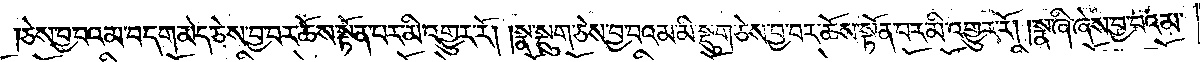ཅེས་བྱ་བའམ་བདག་མེད་ཅེས་བྱ་བར་ཆོས་སྟོན་པར་མི་འགྱུར་རོ། །སྣ་སྡུག་ཅེས་བྱ་བའམ་མི་སྡུག་ཅེས་བྱ་བར་ཆོས་སྟོན་པར་མི་འགྱུར་རོ། །སྣ་ཞི་ཞེས་བྱ་བའམ་
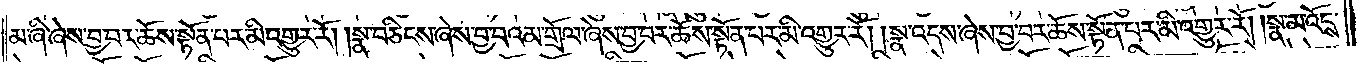མ་ཞི་ཞེས་བྱ་བར་ཆོས་སྟོན་པར་མི་འགྱུར་རོ། །སྣ་བཅིངས་ཞེས་བྱ་བའམ་གྲོལ་ཞེས་བྱ་བར་ཆོས་སྟོན་པར་མི་འགྱུར་རོ། །སྣ་འདས་ཞེས་བྱ་བར་ཆོས་སྟོན་པར་མི་འགྱུར་རོ། །སྣ་མ་འོངས་
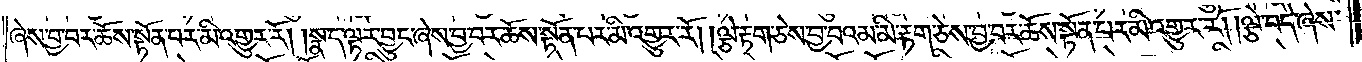ཞེས་བྱ་བར་ཆོས་སྟོན་པར་མི་འགྱུར་རོ། །སྣ་ད་ལྟར་བྱུང་ཞེས་བྱ་བར་ཆོས་སྟོན་པར་མི་འགྱུར་རོ། །ལྕེ་རྟག་ཅེས་བྱ་བའམ་མི་རྟག་ཅེས་བྱ་བར་ཆོས་སྟོན་པར་མི་འགྱུར་རོ། །ལྕེ་བདེ་ཞེས་
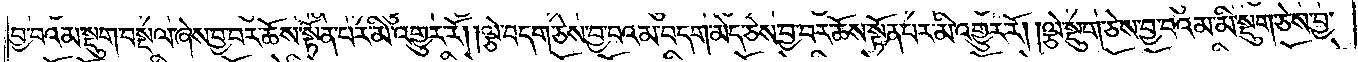བྱ་བའམ་སྡུག་བསྔལ་ཞེས་བྱ་བར་ཆོས་སྟོན་པར་མི་འགྱུར་རོ། །ལྕེ་བདག་ཅེས་བྱ་བའམ་བདག་མེད་ཅེས་བྱ་བར་ཆོས་སྟོན་པར་མི་འགྱུར་རོ། །ལྕེ་སྡུག་ཅེས་བྱ་བའམ་མི་སྡུག་ཅེས་བྱ་
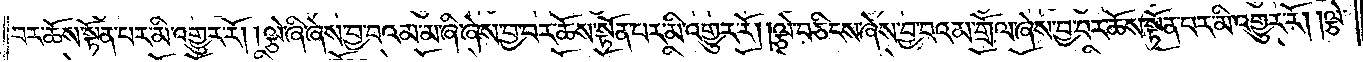བར་ཆོས་སྟོན་པར་མི་འགྱུར་རོ། །ལྕེ་ཞི་ཞེས་བྱ་བའམ་མ་ཞི་ཞེས་བྱ་བར་ཆོས་སྟོན་པར་མི་འགྱུར་རོ། །ལྕེ་བཅིངས་ཞེས་བྱ་བའམ་གྲོལ་ཞེས་བྱ་བར་ཆོས་སྟོན་པར་མི་འགྱུར་རོ། །ལྕེ་
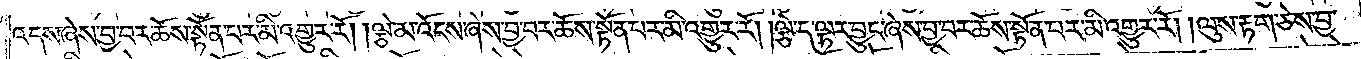འདས་ཞེས་བྱ་བར་ཆོས་སྟོན་པར་མི་འགྱུར་རོ། །ལྕེ་མ་འོངས་ཞེས་བྱ་བར་ཆོས་སྟོན་པར་མི་འགྱུར་རོ། །ལྕེ་ད་ལྟར་བྱུང་ཞེས་བྱ་བར་ཆོས་སྟོན་པར་མི་འགྱུར་རོ། །ལུས་རྟག་ཅེས་བྱ་
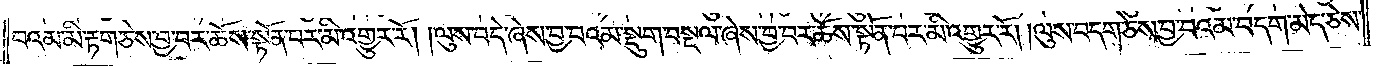བའམ་མི་རྟག་ཅེས་བྱ་བར་ཆོས་སྟོན་པར་མི་འགྱུར་རོ། །ལུས་བདེ་ཞེས་བྱ་བའམ་སྡུག་བསྔལ་ཞེས་བྱ་བར་ཆོས་སྟོན་པར་མི་འགྱུར་རོ། །ལུས་བདག་ཅེས་བྱ་བའམ་བདག་མེད་ཅེས་
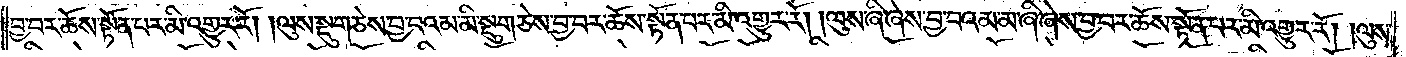བྱ་བར་ཆོས་སྟོན་པར་མི་འགྱུར་རོ། །ལུས་སྡུག་ཅེས་བྱ་བའམ་མི་སྡུག་ཅེས་བྱ་བར་ཆོས་སྟོན་པར་མི་འགྱུར་རོ། །ལུས་ཞི་ཞེས་བྱ་བའམ་མ་ཞི་ཞེས་བྱ་བར་ཆོས་སྟོན་པར་མི་འགྱུར་རོ། །ལུས་
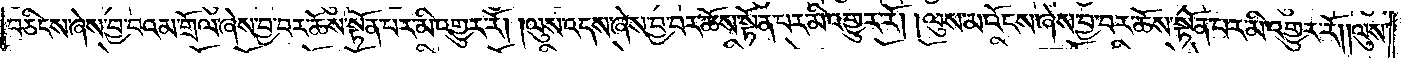བཅིངས་ཞེས་བྱ་བའམ་གྲོལ་ཞེས་བྱ་བར་ཆོས་སྟོན་པར་མི་འགྱུར་རོ། །ལུས་འདས་ཞེས་བྱ་བར་ཆོས་སྟོན་པར་མི་འགྱུར་རོ། །ལུས་མ་འོངས་ཞེས་བྱ་བར་ཆོས་སྟོན་པར་མི་འགྱུར་རོ། །ལུས་
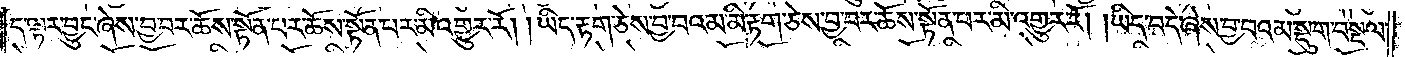ད་ལྟར་བྱུང་ཞེས་བྱ་བར་ཆོས་སྟོན་པར་མི་འགྱུར་རོ། །ཡིད་རྟག་ཅེས་བྱ་བའམ་མི་རྟག་ཅེས་བྱ་བར་ཆོས་སྟོན་པར་མི་འགྱུར་རོ། །ཡིད་བདེ་ཞེས་བྱ་བའམ་སྡུག་བསྔལ་
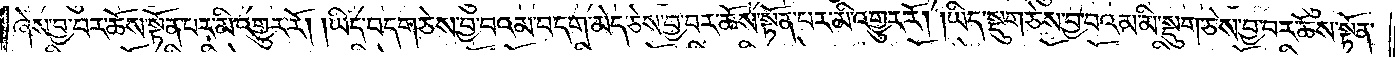ཞེས་བྱ་བར་ཆོས་སྟོན་པར་མི་འགྱུར་རོ། །ཡིད་བདག་ཅེས་བྱ་བའམ་བདག་མེད་ཅེས་བྱ་བར་ཆོས་སྟོན་པར་མི་འགྱུར་རོ། །ཡིད་སྡུག་ཅེས་བྱ་བའམ་མི་སྡུག་ཅེས་བྱ་བར་ཆོས་སྟོན་
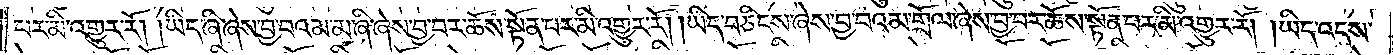པར་མི་འགྱུར་རོ། །ཡིད་ཞི་ཞེས་བྱ་བའམ་མ་ཞི་ཞེས་བྱ་བར་ཆོས་སྟོན་པར་མི་འགྱུར་རོ། །ཡིད་བཅིངས་ཞེས་བྱ་བའམ་གྲོལ་ཞེས་བྱ་བར་ཆོས་སྟོན་པར་མི་འགྱུར་རོ། །ཡིད་འདས་
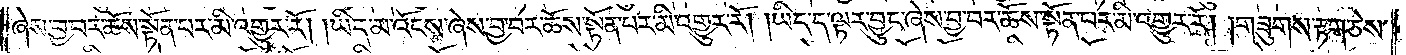ཞེས་བྱ་བར་ཆོས་སྟོན་པར་མི་འགྱུར་རོ། །ཡིད་མ་འོངས་ཞེས་བྱ་བར་ཆོས་སྟོན་པར་མི་འགྱུར་རོ། །ཡིད་ད་ལྟར་བྱུང་ཞེས་བྱ་བར་ཆོས་སྟོན་པར་མི་འགྱུར་རོ། །གཟུགས་རྟག་ཅེས་
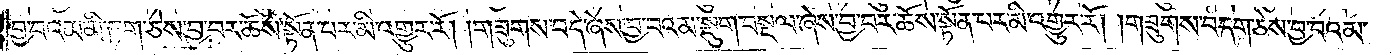བྱ་བའམ་མི་རྟག་ཅེས་བྱ་བར་ཆོས་སྟོན་པར་མི་འགྱུར་རོ། །གཟུགས་བདེ་ཞེས་བྱ་བའམ་སྡུག་བསྔལ་ཞེས་བྱ་བར་ཆོས་སྟོན་པར་མི་འགྱུར་རོ། །གཟུགས་བདག་ཅེས་བྱ་བའམ་
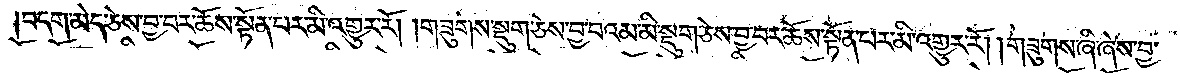བདག་མེད་ཅེས་བྱ་བར་ཆོས་སྟོན་པར་མི་འགྱུར་རོ། །གཟུགས་སྡུག་ཅེས་བྱ་བའམ་མི་སྡུག་ཅེས་བྱ་བར་ཆོས་སྟོན་པར་མི་འགྱུར་རོ། །གཟུགས་ཞི་ཞེས་བྱ་
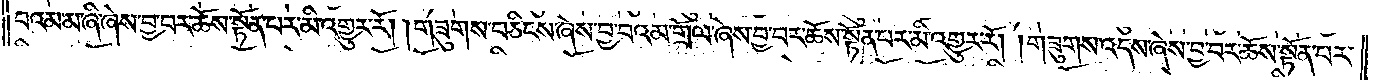བའམ་མ་ཞི་ཞེས་བྱ་བར་ཆོས་སྟོན་པར་མི་འགྱུར་རོ། །གཟུགས་བཅིངས་ཞེས་བྱ་བའམ་གྲོལ་ཞེས་བྱ་བར་ཆོས་སྟོན་པར་མི་འགྱུར་རོ། །གཟུགས་འདས་ཞེས་བྱ་བར་ཆོས་སྟོན་པར་
